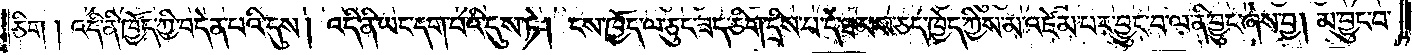ཅིག །འདི་ནི་ཁྱོད་ཀྱི་བདེན་པའི་དུས། འདི་ནི་ཡང་དག་པའི་དུས་ཏེ། ངས་ཁྱོད་ལ་ཅུང་ཟད་ཅིག་དྲིས་པ་དེ་ཐམས་ཅད་ཁྱོད་ཀྱིས་མ་འཛེམ་པར་བྱུང་བ་ལ་ནི་བྱུང་ཞེས་བྱ། མ་བྱུང་བ་
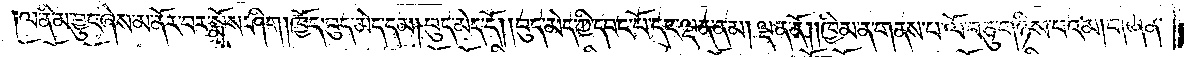ལ་ནི་མ་བྱུང་ཞེས་མ་ནོར་བར་སྨྲོས་ཤིག །ཁྱོད་བུད་མེད་དམ། བུད་མེད་དོ། །བུད་མེད་ཀྱི་དབང་པོ་དང་ལྡན་ནམ། ལྡན་ནོ། །ཁྱིམ་ན་གནས་པ་ལོ་བཅུ་གཉིས་པའམ། གཞོན་
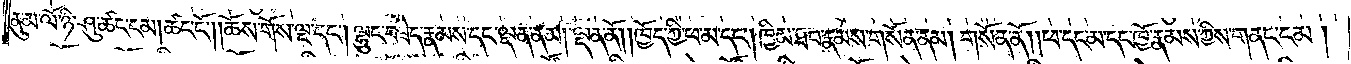ནུ་མ་ལོ་ཉི་ཤུ་ཚང་ངམ། ཚང་ངོ༌། །ཆོས་གོས་ལྔ་དང༌། ལྷུང་བཟེད་རྣམས་དང་ལྡན་ནམ། ལྡན་ནོ། །ཁྱོད་ཀྱི་ཕ་མ་དང༌། ཁྱིམ་ཐབ་རྣམས་གསོན་ནམ། གསོན་ནོ། །ཕ་དང་མ་དང་ཁྱོ་རྣམས་ཀྱིས་གནང་ངམ།
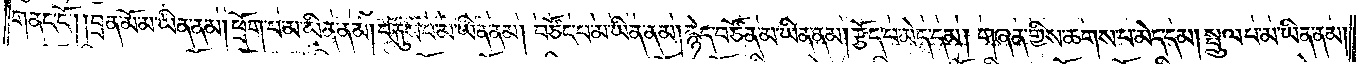གནང་ངོ༌། །བྲན་མོ་མ་ཡིན་ནམ། ཕྲོག་པ་མ་ཡིན་ནམ། བརྐུས་པ་མ་ཡིན་ནམ། བཙོང་པ་མ་ཡིན་ནམ། རྙེད་བཙོན་མ་ཡིན་ནམ། རྩོད་པ་མེད་དམ། གཞན་གྱིས་ཆགས་པ་མེད་དམ། སྤྲུལ་པ་མ་ཡིན་ནམ།
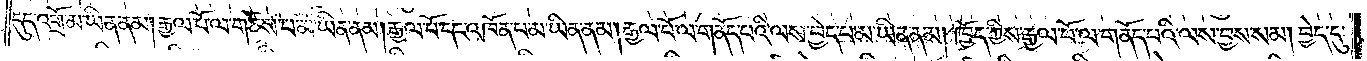དུད་འགྲོ་མ་ཡིན་ནམ། རྒྱལ་པོ་ལ་གཙེས་པ་མ་ཡིན་ནམ། རྒྱལ་པོ་དང་འཁོན་པ་མ་ཡིན་ནམ། རྒྱལ་པོ་ལ་གནོད་པའི་ལས་བྱེད་པ་མ་ཡིན་ནམ། ཁྱོད་ཀྱིས་རྒྱལ་པོ་ལ་གནོད་པའི་ལས་བྱས་སམ། བྱེད་དུ་
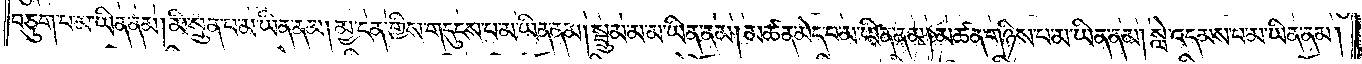བཅུག་པ་མ་ཡིན་ནམ། མི་སྲུན་པ་མ་ཡིན་ནམ། མྱ་ངན་གྱིས་གདུངས་པ་མ་ཡིན་ནམ། སྦྲུམ་མ་མ་ཡིན་ནམ། མཚན་མེད་པ་མ་ཡིན་ནམ། མཚན་གཉིས་པ་མ་ཡིན་ནམ། སླེ་འདམས་པ་མ་ཡིན་ནམ།
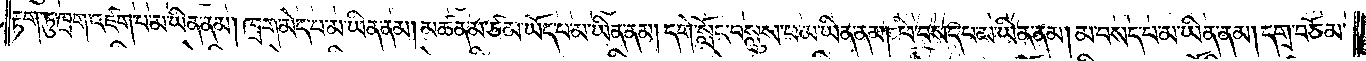རྟག་ཏུ་ཁྲག་འཛག་པ་མ་ཡིན་ནམ། ཁྲག་མེད་པ་མ་ཡིན་ནམ། མཚན་མ་ཙམ་ཡོད་པ་མ་ཡིན་ནམ། དགེ་སློང་བསླུས་པ་མ་ཡིན་ནམ། ཕ་བསད་པ་མ་ཡིན་ནམ། མ་བསད་པ་མ་ཡིན་ནམ། དགྲ་བཅོམ་
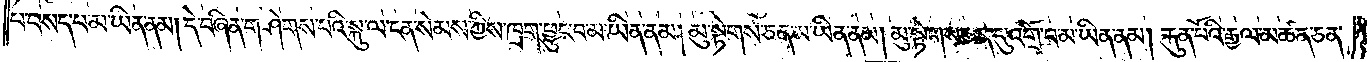པ་བསད་པ་མ་ཡིན་ནམ། དེ་བཞིན་གཤེགས་པའི་སྐུ་ལ་ངན་སེམས་ཀྱིས་ཁྲག་ཕྱུང་བ་མ་ཡིན་ནམ། མུ་སྟེགས་ཅན་མ་ཡིན་ནམ། མུ་སྟེགས་ཅན་དུ་འགྲོ་བ་མ་ཡིན་ནམ། རྐུན་པོའི་རྒྱལ་མཚན་ཅན་
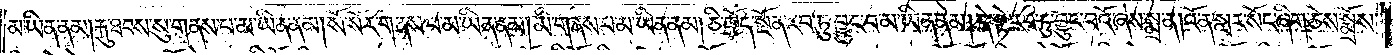མ་ཡིན་ནམ། རྐུ་ཐབས་སུ་གནས་པ་མ་ཡིན་ནམ། སོ་སོར་གནས་པ་མ་ཡིན་ནམ། མི་གནས་པ་མ་ཡིན་ནམ། ཅི་ཁྱོད་སྔོན་རབ་ཏུ་བྱུང་བ་མ་ཡིན་ནམ། དེ་སྟེ་རབ་ཏུ་བྱུང་བའོ་ཞེས་སྨྲ་ན། འོ་ན་སླར་སོང་ཞིག་ཅེས་སྨྲོས་
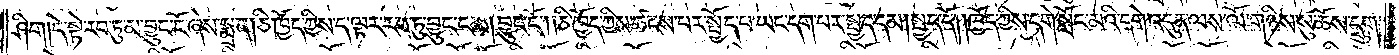ཤིག །དེ་སྟེ་རབ་ཏུ་མ་བྱུང་ངོ་ཞེས་སྨྲ་ན། ཅི་ཁྱོད་ཀྱིས་ད་ལྟར་རབ་ཏུ་བྱུང་ངམ། བྱུང་ངོ༌། །ཅི་ཁྱོད་ཀྱིས་ཚངས་པར་སྤྱོད་པ་ཡང་དག་པར་སྤྱད་དམ། སྤྱད་དོ། །ཁྱོད་ཀྱིས་དགེ་སློང་མའི་དགེ་འདུན་ལས་ལོ་གཉིས་སུ་ཆོས་དྲུག་
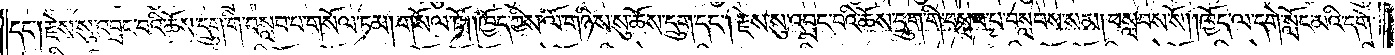དང༌། རྗེས་སུ་འབྲང་བའི་ཆོས་དྲུག་གི་བསླབ་པ་གསོལ་ཏམ། གསོལ་ཏོ། །ཁྱོད་ཀྱིས་ལོ་གཉིས་སུ་ཆོས་དྲུག་དང༌། རྗེས་སུ་འབྲང་བའི་ཆོས་དྲུག་གི་བསླབ་པ་བསླབས་སམ། བསླབས་སོ། །ཁྱོད་ལ་དགེ་སློང་མའི་དགེ་
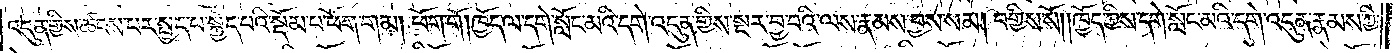འདུན་གྱིས་ཚངས་པར་སྤྱད་པ་སྐྱེད་པའི་སྡོམ་པ་ཕོག་གམ། ཕོག་གོ། ཁྱོད་ལ་དགེ་སློང་མའི་དགེ་འདུན་གྱིས་སྔར་བྱ་བའི་ལས་རྣམས་བྱས་སམ། བགྱིས་སོ། །ཁྱོད་ཀྱིས་དགེ་སློང་མའི་དགེ་འདུན་རྣམས་ཀྱི་
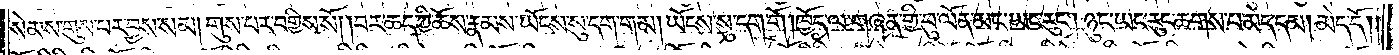སེམས་གུས་པར་བྱས་སམ། གུས་པར་བགྱིས་སོ། །བར་ཆད་ཀྱི་ཆོས་རྣམས་ཡོངས་སུ་དག་གམ། ཡོངས་སུ་དག་གོ །ཁྱོད་ལ་གཞན་གྱི་བུ་ལོན་མང་ཡང་རུང༌། ཉུང་ཡང་རུང་ཆགས་པ་མེད་དམ། མེད་དོ༎
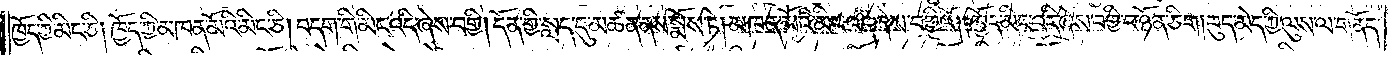ཁྱོད་ཀྱི་མིང་ཅི། ཁྱོད་ཀྱི་མཁན་མོའི་མིང་ཅི། བདག་གི་མིང་འདི་ཞེས་བགྱི། དོན་གྱི་སླད་དུ་མཚན་ནས་སྨོས་ཏེ། མཁན་མོའི་མིང་འདི་ཞེས་བགྱིའོ། །ཁྱོད་མིང་འདི་ཞེས་བགྱི་བ་ཉོན་ཅིག །བུད་མེད་ཀྱི་ལུས་ལ་གནོད་
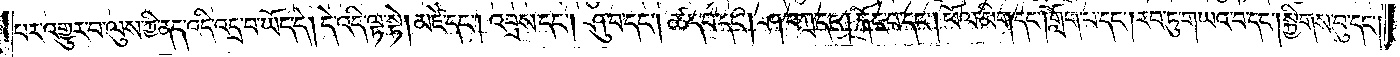པར་འགྱུར་བ་ལུས་ཀྱི་ནད་འདི་འདྲ་བ་ཡོད་དེ། དེ་འདི་ལྟ་སྟེ། མཛེ་དང༌། འབྲས་དང༌། ཤུ་བ་དང༌། ཚད་པ་དང༌། ཤ་བཀྲ་དང༌། རྐོང་བ་དང༌། ཕོལ་མིག་དང༌། གློག་པ་དང༌། རབ་ཏུ་གཡའ་བ་དང༌། སྐྱིགས་བུ་དང་
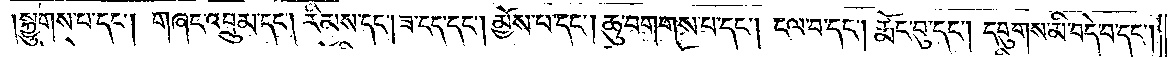སྐྱུགས་པ་དང༌། གཞང་འབྲུམ་དང༌། རིམས་དང༌། ཟ་ངད་དང༌། མྱོས་པ་དང༌། ཆུ་བགགས་པ་དང༌། ངལ་བ་དང༌། རྨོང་བུ་དང༌། དབུགས་མི་བདེ་བ་དང༌།
